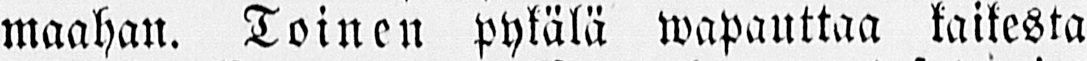maahan. Toinen pykälä wapauttaa kaikesta
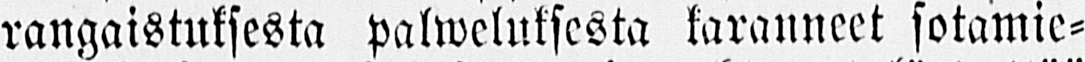rangaistuksesta palweluksesta karanneet sotamie-
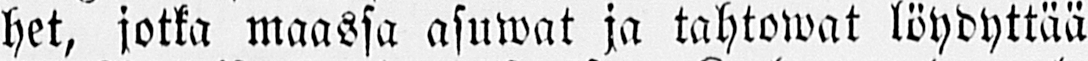het, jotka maassa asuwat ja tahtowat löydyttää
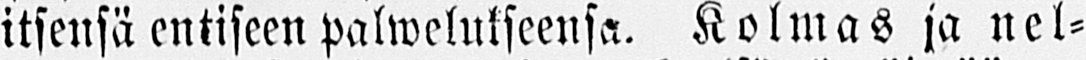itsensä entiseen palwelukseensa. Kolmas ja nel-
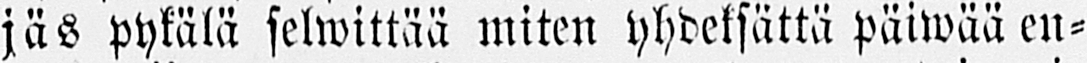jäs pykälä selwittää miten yhdeksättä päiwää en-
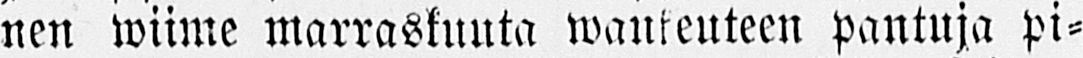nen wiime marraskuuta wankeuteen pantuja pi-
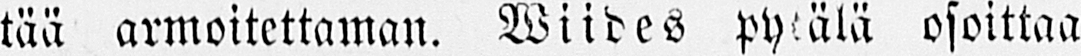tää armoitettaman. Wiides pykälä osoittaa
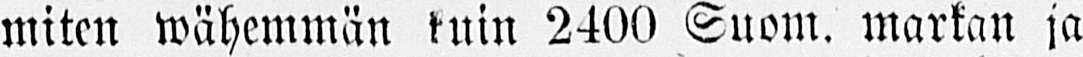miten wähemmän tuin 2400 Suom. markan ja
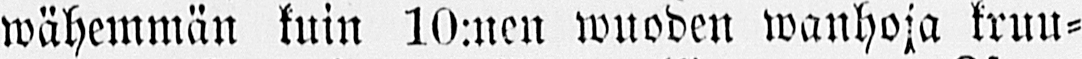wähemmän kuin 10:nen wuoden wanhoja kruu-
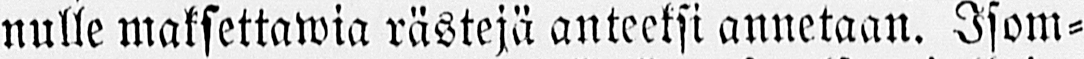nulle maksettawia rästejä anteeksi annetaan. Isom-
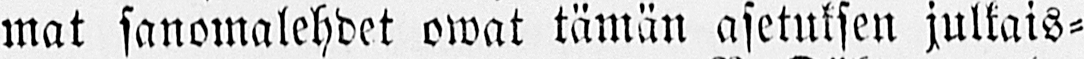mat sanomalehdet owat tämän asetuksen julkais-
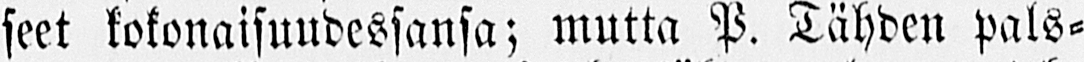seet kokonaisuudessansa; mutta P. Tähden pals-
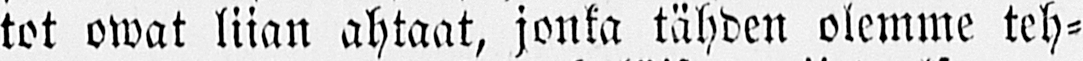tot owat liian ahtaat, jonka tähden olemme teh-
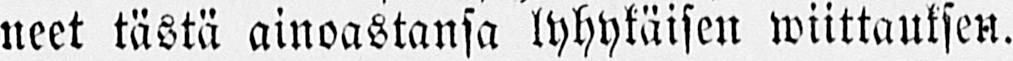neet tästä ainoastansa lyhykäisen wiittauksen.
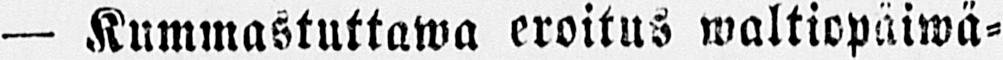— Kummastuttawa eroitus waltiopäiwä-
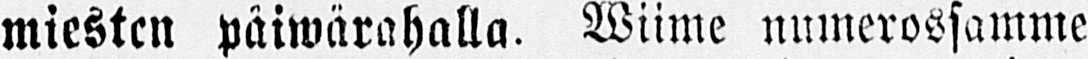miesten päiwärahalla. Wiime numerossamme
